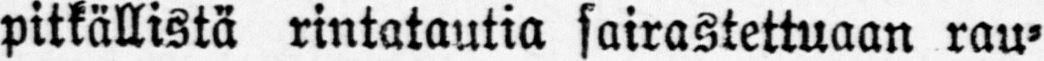pitkällistä rintatautia sairastettuaan rau-
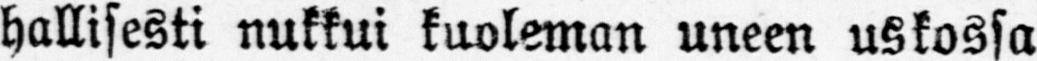hallisesti nukkui kuoleman uneen uskossa
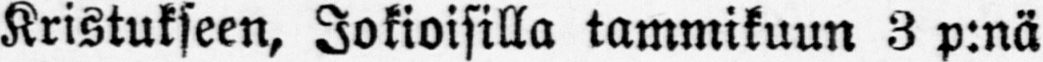Kristukseen, Jokioisilla tammikuun 3 p:nä
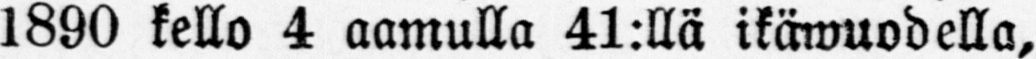1890 kello 4 aamulla 41:llä ikäwuodella,
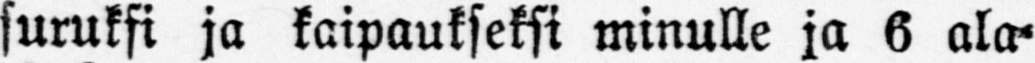suruksi ja kaipaukseksi minulle ja 6 ala-
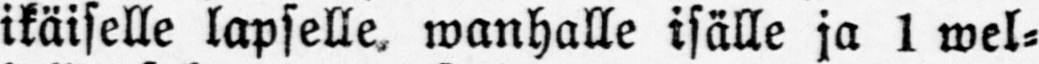ikäiselle lapselle, wanhalle isälle ja 1 wel-
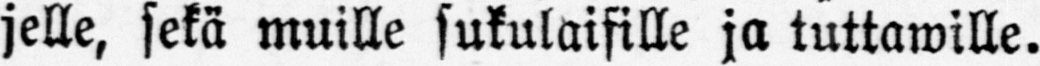jelle, sekä muille sukulaisille ja tuttawille.
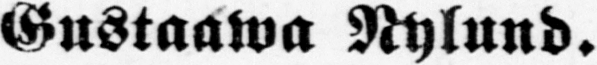Gustaawa Nylund.
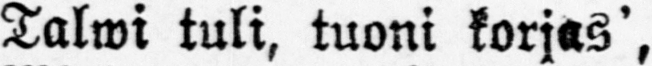Talwi tuli, tuoni korjas',
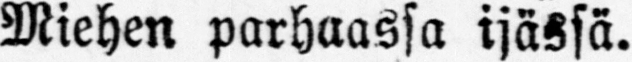Miehen parhaassa ijässä.
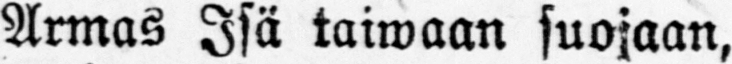Armas Isä taiwaan suojaan,
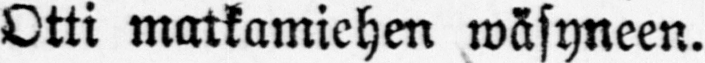Otti matkamiehen wäsyneen.
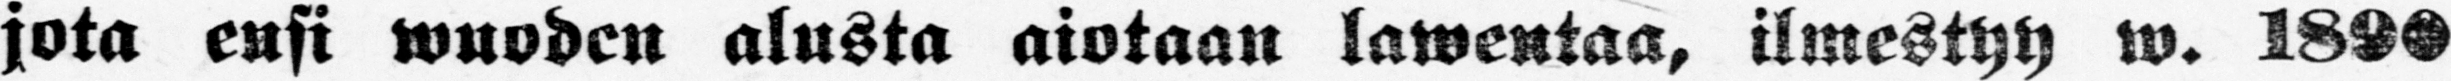jota ensi wuoden alusta aiotaan lawentaa, ilmestyy w. 1890
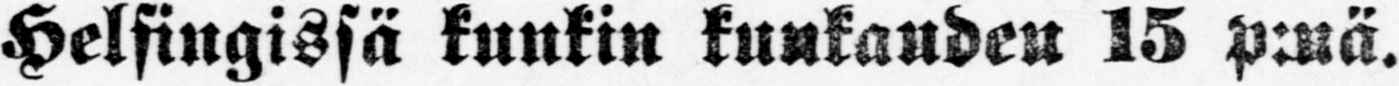Helsingissä kunkin kunkaudeu 15 p:nä.
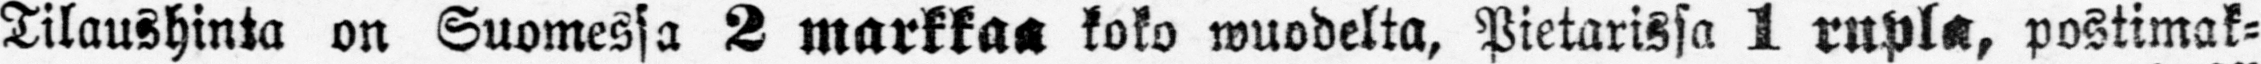Tilaushinta on Suomessa 2 markkaa koko wuodelta, Pietarissa 1 rupla, postimak-
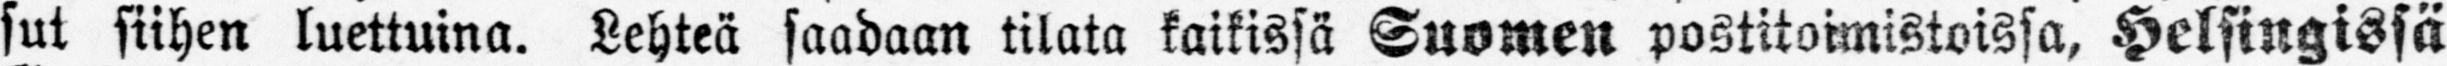sut siihen luettuina. Lehteä saadaan tilata kaikissä Suomen postitoimistoissa, Helsingissä
